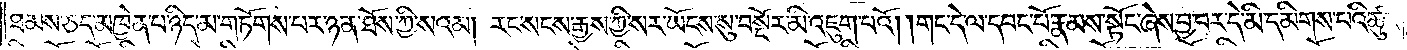ཐམས་ཅད་མཁྱེན་པ་ཉིད་མ་གཏོགས་པར་ཉན་ཐོས་ཀྱི་སའམ། རང་སངས་རྒྱས་ཀྱི་སར་ཡོངས་སུ་བསྔོར་མི་འཇུག་པའོ། །གང་དེ་ལ་དབང་པོ་རྣམས་སྟོང་ཞེས་བྱ་བར་དེ་མི་དམིགས་པའི་ཚུལ་
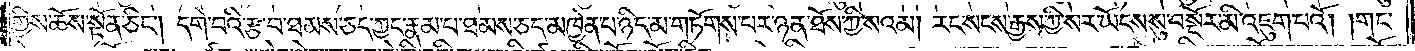གྱིས་ཆོས་སྟོན་ཅིང༌། དགེ་བའི་རྩ་བ་ཐམས་ཅད་ཀྱང་རྣམ་པ་ཐམས་ཅད་མཁྱེན་པ་ཉིད་མ་གཏོགས་པ་ཉན་ཐོས་ཀྱི་སའམ། རང་སངས་རྒྱས་ཀྱི་སར་ཡོངས་སུ་བསྔོར་མི་འཇུག་པའོ། །གང་
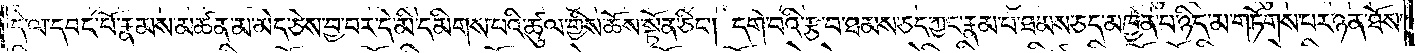དེ་ལ་དབང་པོ་རྣམས་མཚན་མ་མེད་ཅེས་བྱ་བར་དེ་མི་དམིགས་པའི་ཚུལ་གྱིས་ཆོས་སྟོན་ཅིང༌། དགེ་བའི་རྩ་བ་ཐམས་ཅད་ཀྱང་རྣམ་པ་ཐམས་ཅད་མཁྱེན་པ་ཉིད་མ་གཏོགས་པར་ཉན་ཐོས་
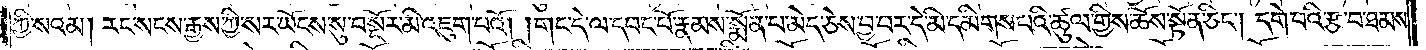ཀྱི་སའམ། རང་སངས་རྒྱས་ཀྱི་སར་ཡོངས་སུ་བསྔོར་མི་འཇུག་པའོ། །གང་དེ་ལ་དབང་པོ་རྣམས་སྨོན་པ་མེད་ཅེས་བྱ་བར་དེ་མི་དམིགས་པའི་ཚུལ་གྱིས་ཆོས་སྟོན་ཅིང༌། དགེ་བའི་རྩ་བ་ཐམས་
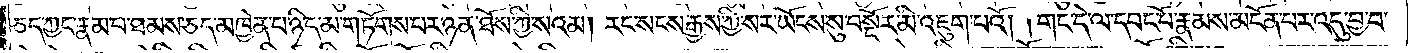ཅད་ཀྱང་རྣམ་པ་ཐམས་ཅད་མཁྱེན་པ་ཉིད་མ་གཏོགས་པར་ཉན་ཐོས་ཀྱི་སའམ། རང་སངས་རྒྱས་ཀྱི་སར་ཡོངས་སུ་བསྔོར་མི་འཇུག་པའོ། །གང་དེ་ལ་དབང་པོ་རྣམས་མངོན་པར་འདུ་བྱ་བ་
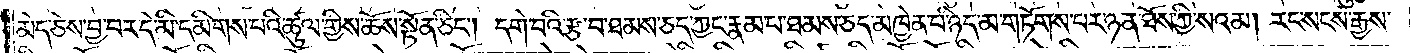མེད་ཅེས་བྱ་བར་དེ་མི་དམིགས་པའི་ཚུལ་གྱིས་ཆོས་སྟོན་ཅིང༌། དགེ་བའི་རྩ་བ་ཐམས་ཅད་ཀྱང་རྣམ་པ་ཐམས་ཅད་མཁྱེན་པ་ཉིད་མ་གཏོགས་པར་ཉན་ཐོས་ཀྱི་སའམ། རང་སངས་རྒྱས་
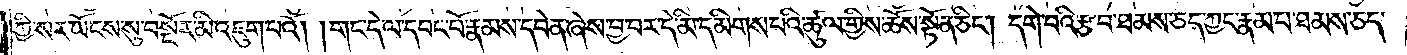ཀྱི་སར་ཡོངས་སུ་བསྔོར་མི་འཇུག་པའོ། །གང་དེ་ལ་དབང་པོ་རྣམས་དབེན་ཞེས་བྱ་བར་དེ་མི་དམིགས་པའི་ཚུལ་གྱིས་ཆོས་སྟོན་ཅིང༌། དགེ་བའི་རྩ་བ་ཐམས་ཅད་ཀྱང་རྣམ་པ་ཐམས་ཅད་
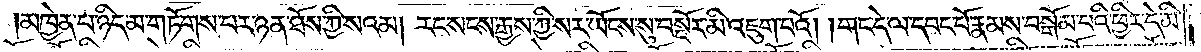མཁྱེན་པ་ཉིད་མ་གཏོགས་པར་ཉན་ཐོས་ཀྱི་སའམ། རང་སངས་རྒྱས་ཀྱི་སར་ཡོངས་སུ་བསྔོར་མི་འཇུག་པའོ། །གང་དེ་ལ་དབང་པོ་རྣམས་བསྒོམ་པའི་ཕྱིར་དེ་མི་
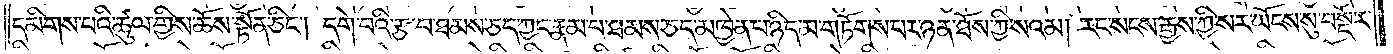དམིགས་པའི་ཚུལ་གྱིས་ཆོས་སྟོན་ཅིང༌། དགེ་བའི་རྩ་བ་ཐམས་ཅད་ཀྱང་རྣམ་པ་ཐམས་ཅད་མཁྱེན་པ་ཉིད་མ་གཏོགས་པར་ཉན་ཐོས་ཀྱི་སའམ། རང་སངས་རྒྱས་ཀྱི་སར་ཡོངས་སུ་བསྔོར་
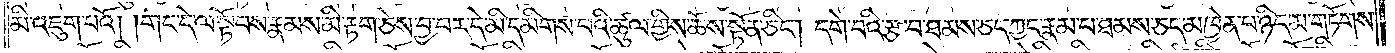མི་འཇུག་པའོ། །གང་དེ་ལ་སྟོབས་རྣམས་མི་རྟག་ཅེས་བྱ་བར་དེ་མི་དམིགས་པའི་ཚུལ་གྱིས་ཆོས་སྟོན་ཅིང༌། དགེ་བའི་རྩ་བ་ཐམས་ཅད་ཀྱང་རྣམ་པ་ཐམས་ཅད་མཁྱེན་པ་ཉིད་མ་གཏོགས་
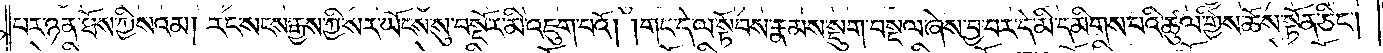པར་ཉན་ཐོས་ཀྱི་སའམ། རང་སངས་རྒྱས་ཀྱི་སར་ཡོངས་སུ་བསྔོར་མི་འཇུག་པའོ། །གང་དེ་ལ་སྟོབས་རྣམས་སྡུག་བསྔལ་ཞེས་བྱ་བར་དེ་མི་དམིགས་པའི་ཚུལ་གྱིས་ཆོས་སྟོན་ཅིང༌།
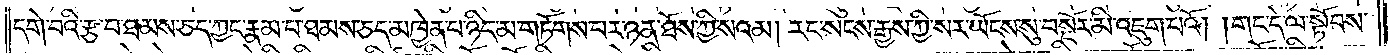དགེ་བའི་རྩ་བ་ཐམས་ཅད་ཀྱང་རྣམ་པ་ཐམས་ཅད་མཁྱེན་པ་ཉིད་མ་གཏོགས་པར་ཉན་ཐོས་ཀྱི་སའམ། རང་སངས་རྒྱས་ཀྱི་སར་ཡོངས་སུ་བསྔོར་མི་འཇུག་པའོ། །གང་དེ་ལ་སྟོབས་
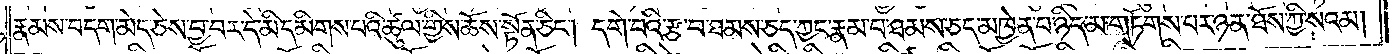རྣམས་བདག་མེད་ཅེས་བྱ་བར་དེ་མི་དམིགས་པའི་ཚུལ་གྱིས་ཆོས་སྟོན་ཅིང༌། དགེ་བའི་རྩ་བ་ཐམས་ཅད་ཀྱང་རྣམ་པ་ཐམས་ཅད་མཁྱེན་པ་ཉིད་མ་གཏོགས་པར་ཉན་ཐོས་ཀྱི་སའམ།
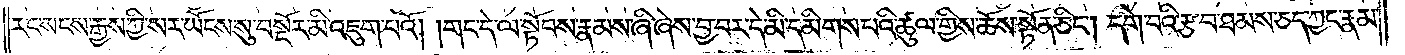རང་སངས་རྒྱས་ཀྱི་སར་ཡོངས་སུ་བསྔོར་མི་འཇུག་པའོ། །གང་དེ་ལ་སྟོབས་རྣམས་ཞི་ཞེས་བྱ་བར་དེ་མི་དམིགས་པའི་ཚུལ་གྱིས་ཆོས་སྟོན་ཅིང༌། དགེ་བའི་རྩ་བ་ཐམས་ཅད་ཀྱང་རྣམ་
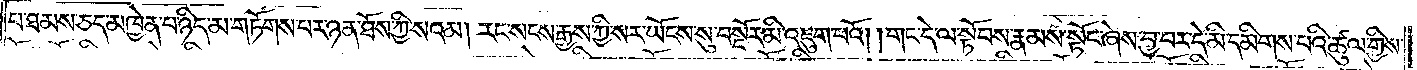པ་ཐམས་ཅད་མཁྱེན་པ་ཉིད་མ་གཏོགས་པར་ཉན་ཐོས་ཀྱི་སའམ། རང་སངས་རྒྱས་ཀྱི་སར་ཡོངས་སུ་བསྔོར་མི་འཇུག་པའོ། །གང་དེ་ལ་སྟོབས་རྣམས་སྟོང་ཞེས་བྱ་བར་དེ་མི་དམིགས་པའི་ཚུལ་གྱིས་
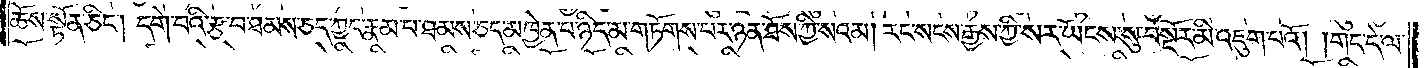ཆོས་སྟོན་ཅིང༌། དགེ་བའི་རྩ་བ་ཐམས་ཅད་ཀྱང་རྣམ་པ་ཐམས་ཅད་མཁྱེན་པ་ཉིད་མ་གཏོགས་པར་ཉན་ཐོས་ཀྱི་སའམ། རང་སངས་རྒྱས་ཀྱི་སར་ཡོངས་སུ་བསྔོར་མི་འཇུག་པའོ། །གང་དེ་ལ་
